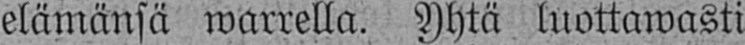elämänsä warrella. Yhtä luottawasti
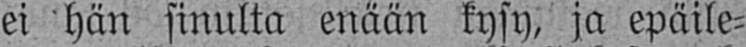ei hän sinulta enään kysy, ja epäile-
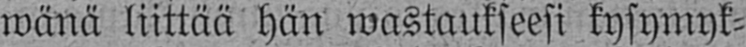wänä liittää hän wastaukseesi kysymyk-
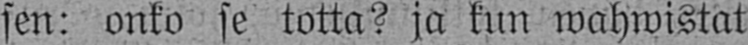sen: onko se totta? ja kun wahwistat
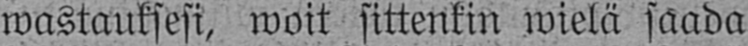wastauksesi, woit sittenkin wielä saada
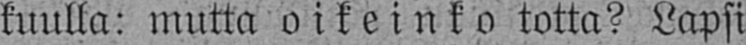kuulla: mutta oikeinko totta? Lapsi
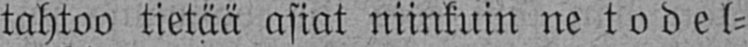tahtoo tietää asiat niinkuin ne todel-
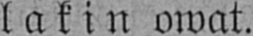lakin owat.
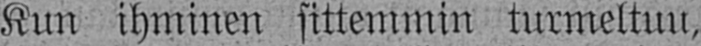Kun ihminen sittemmin turmeltuu,
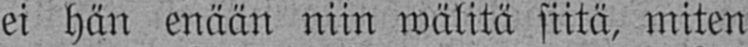ei hän enään niin wälitä siitä, miten
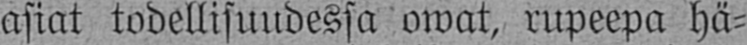asiat todellisuudessa owat, rupeepa hä-
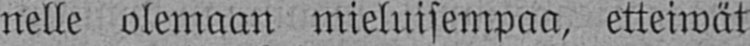nelle olemaan mieluisempaa, etteiwät
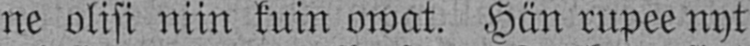ne olisi niin kuin owat. Hän rupee nyt
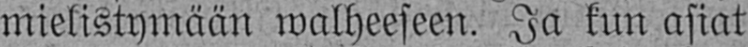mielistymään walheeseen. Ja kun asiat
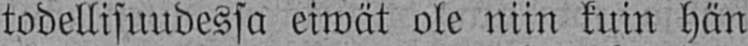todellisuudessa eiwät ole niin kuin hän
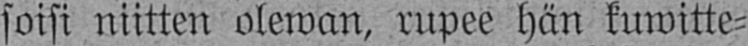soisi niitten olewan, rupee hän kuwitte-
